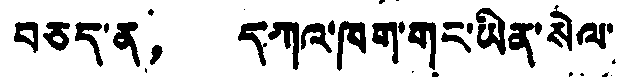བཅད་ན， དཀའ་ཁག་གང་ཡིན་སེལ་
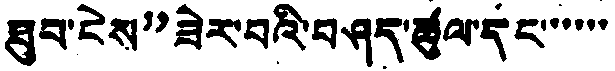ཐུབ་ངེས”ཟེར་བའི་བཤད་ཚུལ་དང་་་་་་
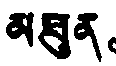མཐུན。
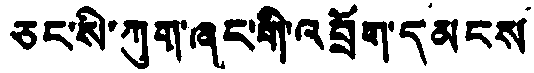ཅང་སི་ཀུག་ཞང་གི་འབྲོག་དམངས
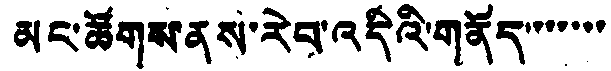མང་ཚོགས་ནས་རེབ་འདིའི་གནོད་་་་་་་
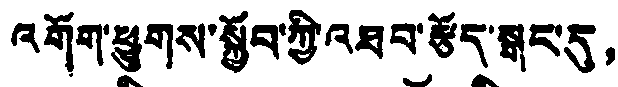འགོག་ཕྱུགས་སྐྱོབ་ཀྱི་འཐབ་རྩོད་སྒང་དུ，
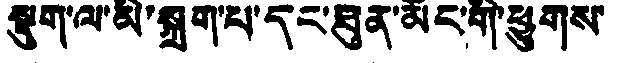སྡུག་ལ་མི་སྐྲག་པ་དང་ཐུན་མོང་གི་ཕྱུགས་
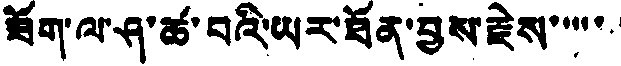ཟོག་ལ་ཤ་ཚ་བའི་ཡར་ཐོན་བྱས་རྗེས་་་་་་
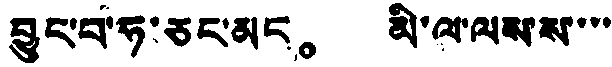བྱུང་བ་ཧ་ཅང་མང。 མི་ལ་ལས་ས་་་་
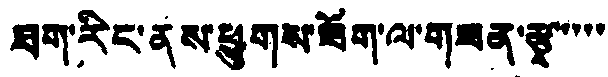ཐག་རིང་ནས་ཕྱུགས་ཟོག་ལ་གཟན་རྩྭ་་་་་
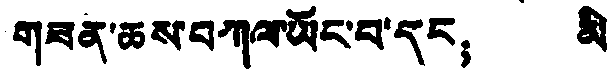གཟན་ཆས་བཀལ་ཡོང་བ་དང； མི་
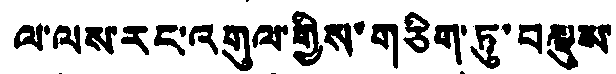ལ་ལས་རང་འགུལ་གྱིས་གཅིག་ཏུ་བསྡུས་
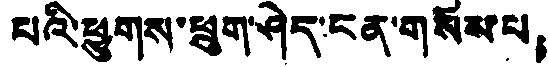པའི་ཕྱུགས་ཕྲུག་ཤེད་ངན་གསོས་པ；
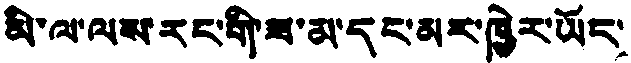མི་ལ་ལས་རང་གི་ཟ་མ་དང་མར་ཁྱེར་ཡོང་
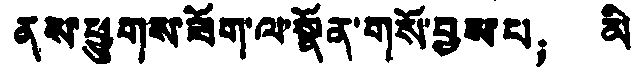ནས་ཕྱུགས་ཟོག་ལ་སྣོན་གསོ་བྱས་པ； མི་
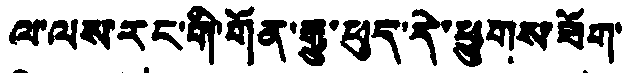ལ་ལས་རང་གི་གོན་རྒྱུ་ཕུད་དེ་ཕྱུགས་ཟོག་
